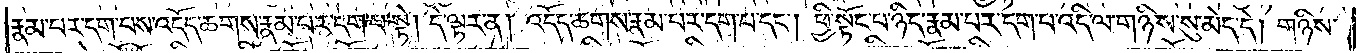རྣམ་པར་དག་པས་འདོད་ཆགས་རྣམ་པར་དག་པ་སྟེ། དེ་ལྟར་ན། འདོད་ཆགས་རྣམ་པར་དག་པ་དང༌། ཕྱི་སྟོང་པ་ཉིད་རྣམ་པར་དག་པ་འདི་ལ་གཉིས་སུ་མེད་དེ། གཉིས་
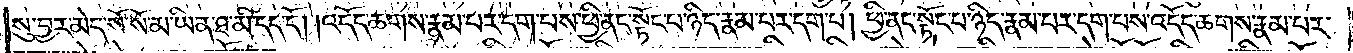སུ་བྱར་མེད་སོ་སོ་མ་ཡིན་ཐ་མི་དད་དོ། །འདོད་ཆགས་རྣམ་པར་དག་པས་ཕྱི་ནང་སྟོང་པ་ཉིད་རྣམ་པར་དག་པ། ཕྱི་ནང་སྟོང་པ་ཉིད་རྣམ་པར་དག་པས་འདོད་ཆགས་རྣམ་པར་
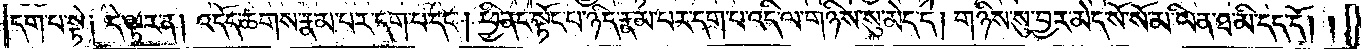དག་པ་སྟེ༑ དེ་ལྟར་ན། འདོད་ཆགས་རྣམ་པར་དག་པ་དང༌། ཕྱི་ནང་སྟོང་པ་ཉིད་རྣམ་པར་དག་པ་འདི་ལ་གཉིས་སུ་མེད་དེ། གཉིས་སུ་བྱར་མེད་སོ་སོ་མ་ཡིན་ཐ་མི་དད་དོ། །
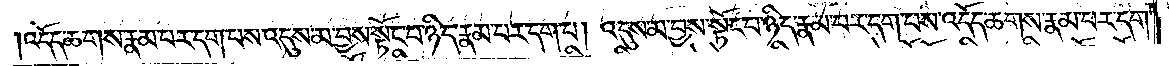འདོད་ཆགས་རྣམ་པར་དག་པས་འདུས་མ་བྱས་སྟོང་པ་ཉིད་རྣམ་པར་དག་པ། འདུས་མ་བྱས་སྟོང་པ་ཉིད་རྣམ་པར་དག་པས་འདོད་ཆགས་རྣམ་པར་དག་
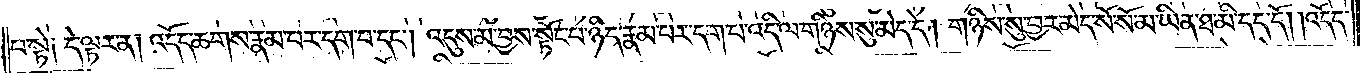པ་སྟེ༑ དེ་ལྟར་ན། འདོད་ཆགས་རྣམ་པར་དག་པ་དང༌། འདུས་མ་བྱས་སྟོང་པ་ཉིད་རྣམ་པར་དག་པ་འདི་ལ་གཉིས་སུ་མེད་དེ། གཉིས་སུ་བྱར་མེད་སོ་སོ་མ་ཡིན་ཐ་མི་དད་དོ། །འདོད་
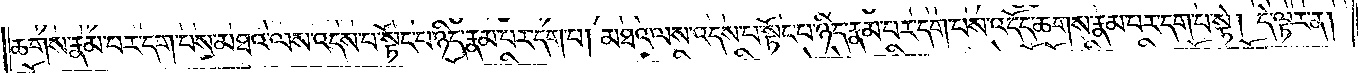ཆགས་རྣམ་པར་དག་པས་མཐའ་ལས་འདས་པ་སྟོང་པ་ཉིད་རྣམ་པར་དག་པ། མཐའ་ལས་འདས་པ་སྟོང་པ་ཉིད་རྣམ་པར་དག་པས་འདོད་ཆགས་རྣམ་པར་དག་པ་སྟེ། དེ་ལྟར་ན།
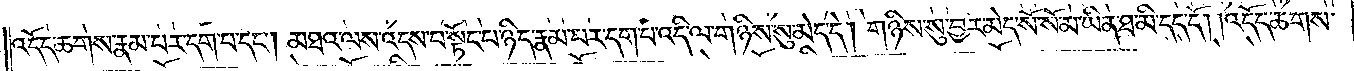འདོད་ཆགས་རྣམ་པར་དག་པ་དང༌། མཐའ་ལས་འདས་པ་སྟོང་པ་ཉིད་རྣམ་པར་དག་པ་འདི་ལ་གཉིས་སུ་མེད་དེ། གཉིས་སུ་བྱར་མེད་སོ་སོ་མ་ཡིན་ཐ་མི་དད་དོ། །འདོད་ཆགས་
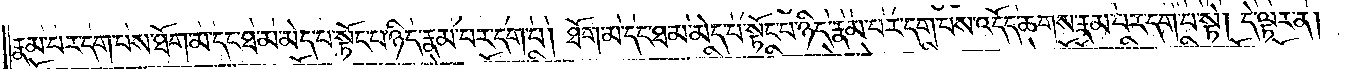རྣམ་པར་དག་པས་ཐོག་མ་དང་ཐ་མ་མེད་པ་སྟོང་པ་ཉིད་རྣམ་པར་དག་པ། ཐོག་མ་དང་ཐ་མ་མེད་པ་སྟོང་པ་ཉིད་རྣམ་པར་དག་པས་འདོད་ཆགས་རྣམ་པར་དག་པ་སྟེ། དེ་ལྟར་ན།
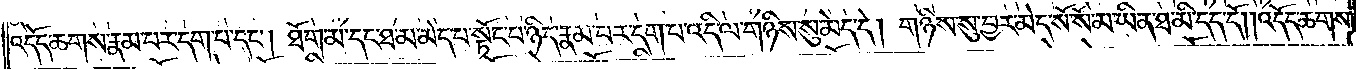འདོད་ཆགས་རྣམ་པར་དག་པ་དང༌། ཐོག་མ་དང་ཐ་མ་མེད་པ་སྟོང་པ་ཉིད་རྣམ་པར་དག་པ་འདི་ལ་གཉིས་སུ་མེད་དེ། གཉིས་སུ་བྱར་མེད་སོ་སོ་མ་ཡིན་ཐ་མི་དད་དོ། །འདོད་ཆགས་
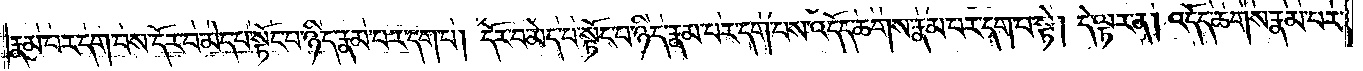རྣམ་པར་དག་པས་དོར་བ་མེད་པ་སྟོང་པ་ཉིད་རྣམ་པར་དག་པ། དོར་བ་མེད་པ་སྟོང་པ་ཉིད་རྣམ་པར་དག་པས་འདོད་ཆགས་རྣམ་པར་དག་པ་སྟེ། དེ་ལྟར་ན། འདོད་ཆགས་རྣམ་པར་
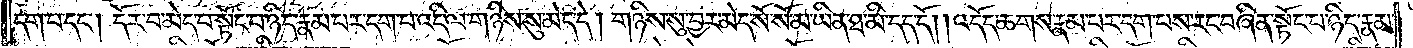དག་པ་དང༌། དོར་བ་མེད་པ་སྟོང་པ་ཉིད་རྣམ་པར་དག་པ་འདི་ལ་གཉིས་སུ་མེད་དེ། གཉིས་སུ་བྱར་མེད་སོ་སོ་མ་ཡིན་ཐ་མི་དད་དོ། །འདོད་ཆགས་རྣམ་པར་དག་པས་རང་བཞིན་སྟོང་པ་ཉིད་རྣམ་
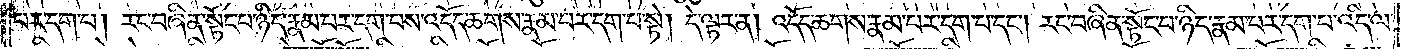པར་དག་པ། རང་བཞིན་སྟོང་པ་ཉིད་རྣམ་པར་དག་པས་འདོད་ཆགས་རྣམ་པར་དག་པ་སྟེ། དེ་ལྟར་ན། འདོད་ཆགས་རྣམ་པར་དག་པ་དང༌། རང་བཞིན་སྟོང་པ་ཉིད་རྣམ་པར་དག་པ་འདི་ལ་
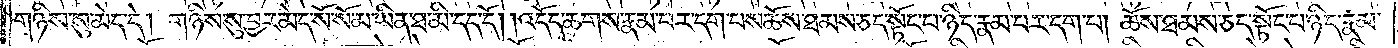གཉིས་སུ་མེད་དེ། གཉིས་སུ་བྱར་མེད་སོ་སོ་མ་ཡིན་ཐ་མི་དད་དོ། །འདོད་ཆགས་རྣམ་པར་དག་པས་ཆོས་ཐམས་ཅད་སྟོང་པ་ཉིད་རྣམ་པར་དག་པ། ཆོས་ཐམས་ཅད་སྟོང་པ་ཉིད་རྣམ་
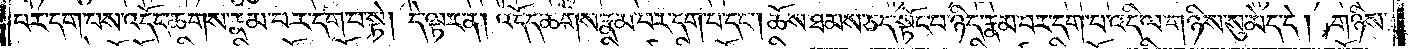པར་དག་པས་འདོད་ཆགས་རྣམ་པར་དག་པ་སྟེ། དེ་ལྟར་ན། འདོད་ཆགས་རྣམ་པར་དག་པ་དང༌། ཆོས་ཐམས་ཅད་སྟོང་པ་ཉིད་རྣམ་པར་དག་པ་འདི་ལ་གཉིས་སུ་མེད་དེ། གཉིས་
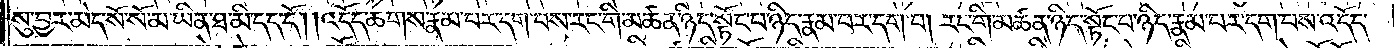སུ་བྱར་མེད་སོ་སོ་མ་ཡིན་ཐ་མི་དད་དོ། །འདོད་ཆགས་རྣམ་པར་དག་པས་རང་གི་མཚན་ཉིད་སྟོང་པ་ཉིད་རྣམ་པར་དག་པ། རང་གི་མཚན་ཉིད་སྟོང་པ་ཉིད་རྣམ་པར་དག་པས་འདོད་
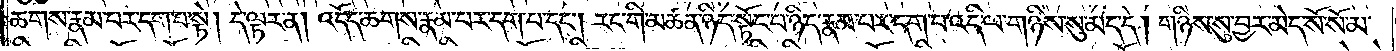ཆགས་རྣམ་པར་དག་པ་སྟེ། དེ་ལྟར་ན། འདོད་ཆགས་རྣམ་པར་དག་པ་དང༌། རང་གི་མཚན་ཉིད་སྟོང་པ་ཉིད་རྣམ་པར་དག་པ་འདི་ལ་གཉིས་སུ་མེད་དེ། གཉིས་སུ་བྱར་མེད་སོ་སོ་མ་
